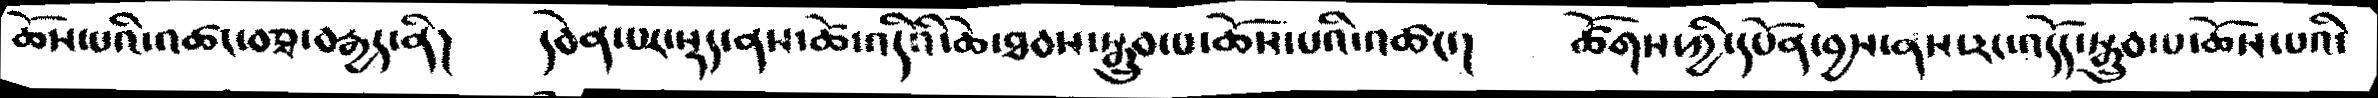ཆོས་པའི་འཚང་བཅྭ་བརྒྱད་ནི།  དབེན་པར་སྡད་ནས་ཚེ་འདིའི་ཆེ་ཐབས་སྒྲུབ་པ་ཆོས་པའི་འཚང་།  ཚོགས་ཀྱི་དཔོན་བྱས་ནས་རང་འདོད་སྒྲུབ་པ་ཆོས་པའི་
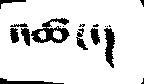འཚང་།
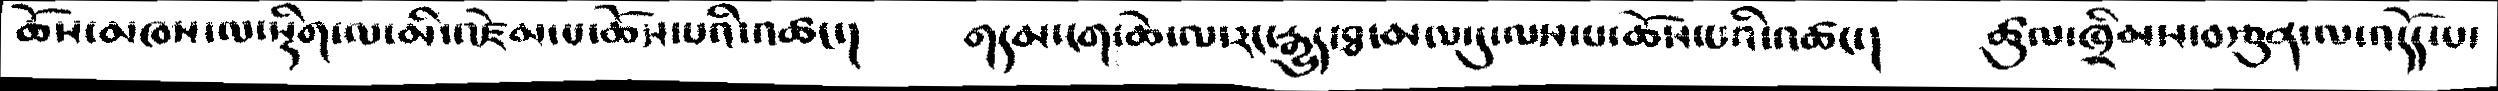ཆོས་མཁས་ལ་སྡིག་ལ་མི་འཛེམ་པ་ཆོས་པའི་འཚང་།  གདམ་ངག་ཆེ་ལ་རང་རྒྱུད་ཐ་མལ་དུ་ལས་པ་ཆོས་པའི་འཚང་།  ཚུལ་ཁྲིམས་བརྩུན་ལ་འདོད་པ་
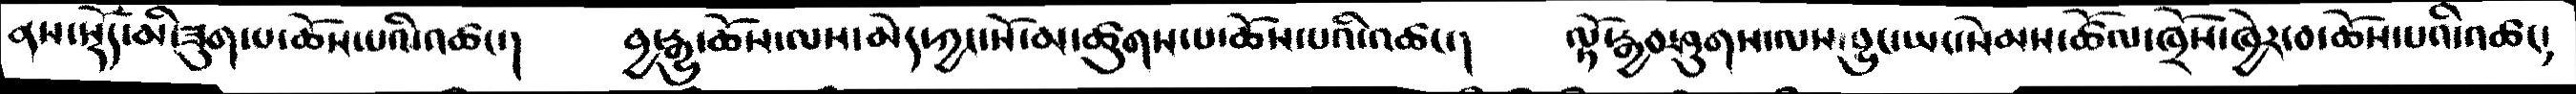ནས་སྡོད་མི་ཟུག་པ་ཆོས་པའི་འཚང་།   བྱ་རྒྱུ་ཆོས་ལས་མེད་ཀྱང་སོ་མ་ཚུགས་པ་ཆོས་པའི་འཚང་།  ལྟོ་རྒྱབ་ཤུགས་ལས་བྱུང་ཡང་སེམས་ཚོལ་ཁྲོས་ཁྱེར་བ་ཆོས་པའི་འཚང་།
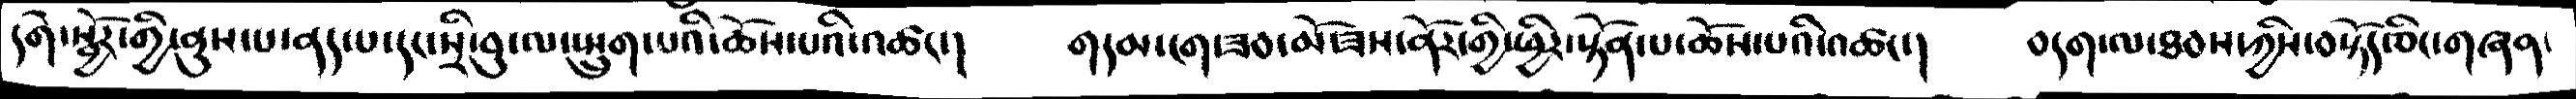དགེ་སྦྱོར་གྱི་ནུས་པ་ནད་པ་དང་སྲི་བུ་ལ་སྤྲུག་པའི་ཆོས་པའི་འཚང་།  གདམ་ངག་ཟབ་མོ་ཟསནོར་གྱི་ཕྱིར་སྟོན་པ་ཆོས་པའི་འཚང་།   བདག་ལ་ཐབས་ཀྱིས་བསྟོད་ཅིང་གཞན་
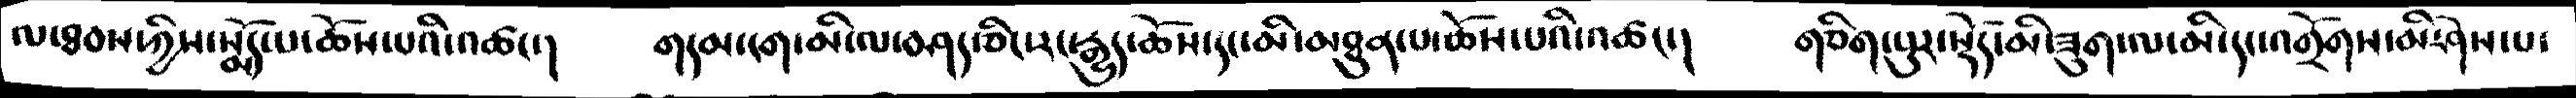ལ་ཐབས་ཀྱིས་སྨོད་པ་ཆོས་པའི་འཚང་།  གདམ་ངག་མི་ལ་བཤད་ཅིང་རང་རྒྱུད་ཆོས་དང་མི་མཐུན་པ་ཆོས་པའི་འཚང་།   གཅིག་པུར་སྡོད་མི་ཟུག་ལ་མི་དང་འགྲོགས་མི་ཤེས་པ་
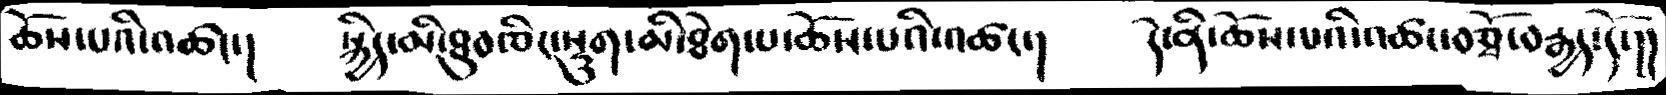ཆོས་པའི་འཚང་།  སྐྱིད་མི་ཐུབ་ཅིང་སྡུག་མི་ཐེག་པ་ཆོས་པའི་འཚང་།  དེ་ནི་ཆོས་པའི་འཚང་བཙྭོ་བརྒྱད་དོ་།།
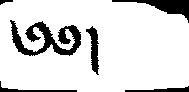༄༅།
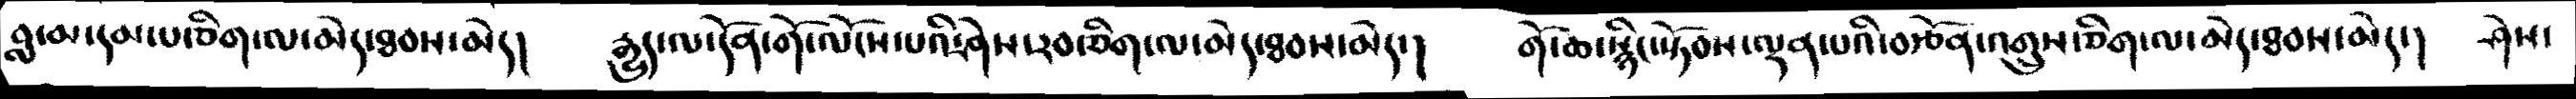བླ་མ་དམ་པ་ཅིག་ལ་མེད་ཐབས་མེད།  རྒྱུད་ལ་དོན་གོ་ལོངས་པའི་ཤེས་རབ་ཅིག་ལ་མེད་ཐབས་མེད་།  གོ་ཆ་སྙིང་སྟོབས་ལྡན་པའི་བརྩོན་འགྲུས་ཅིག་ལ་མེད་ཐབས་མེད་།  ཤེས་
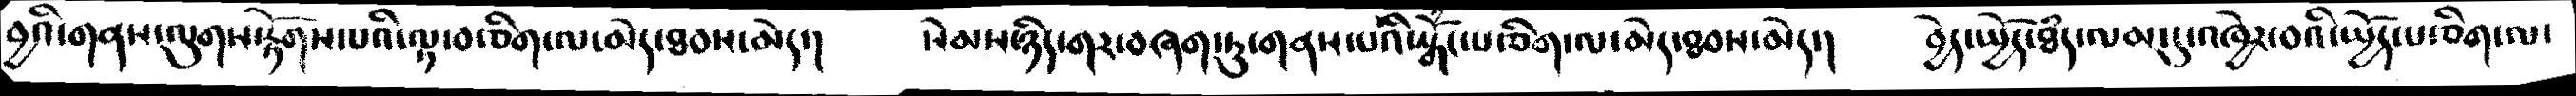བྱའི་གནས་ལུགས་རྟོགས་པའི་ལྟ་བ་ཅིག་ལ་མེད་ཐབས་མེད་།   སེམས་ཉིད་གར་བཞག་གནས་པའི་སྒོང་པ་ཅིག་ལ་མེད་ཐབས་མེད་།  བྱེད་སྤྱོད་ཐཾད་ལམ་དུ་འཁྱེར་བའི་སྤྱོད་པ་ཅིག་ལ་
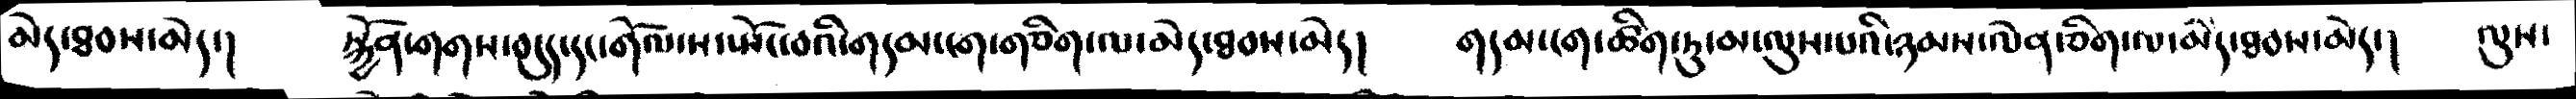མེད་ཐབས་མེད་།  སྐྱོན་གགས་བདུད་དང་གོལ་ས་སྤོང་བའི་གདམ་ངག་གཅིག་ལ་མེད་ཐབས་མེད།  གདམ་ངག་ཚིག་ཏུ་མ་ལུས་པའི་ཉམས་ལེན་ཅིག་ལ་མེད་ཐབས་མེད་།  ལུས་
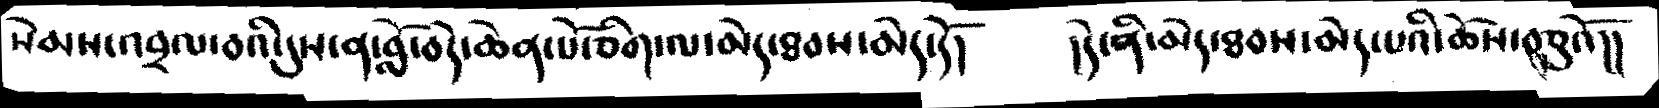སེམས་འབྲལ་བའི་དུས་ན་བློ་བདེ་ཆེན་པོ་ཅིག་ལ་མེད་ཐབས་མེད་དོ། །དེ་ནི་མེད་ཐབས་མེད་པའི་ཆོས་བཅུའོ།།
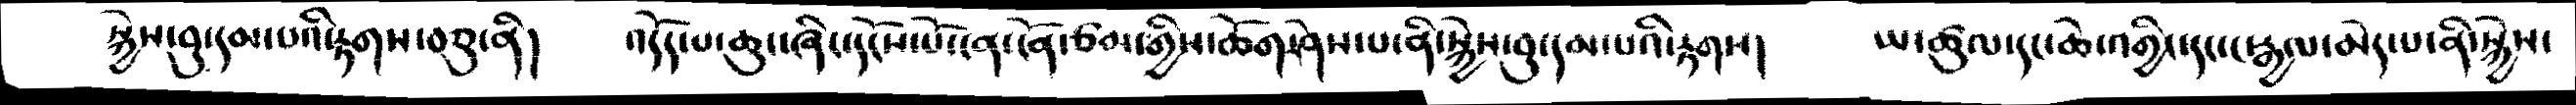སྐྱེས་བུ་དམ་པའི་རྟགས་བཅུ་ནི།  འདོད་པ་ཆུང་ཞིང་དངོས་པོ་ངན་ངོན་ཙམ་གྱི་ཆོག་ཤེས་པ་ནི་སྐྱེས་བུ་དམ་པའི་རྟགས།  ཡ་ཚུལ་དང་ཆེ་འགྱིང་དང་ང་རྒྱལ་མེད་པ་ནི་སྐྱེས་
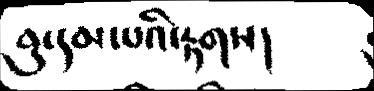བུ་དམ་པའི་རྟགས།
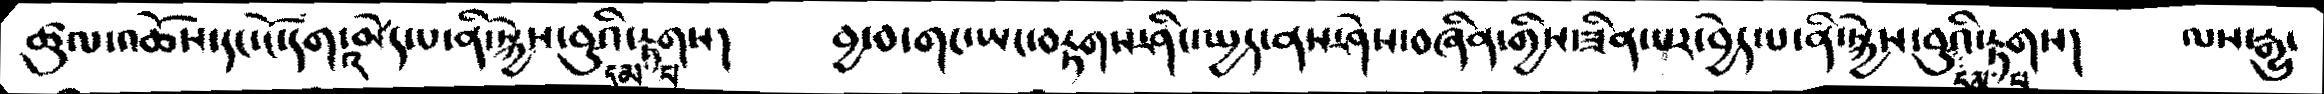ཚུལ་འཆོས་དང་ངོ་དགའ་མེད་པ་ནི་སྐྱེས་བུ་དམ་པའི་རྟགས།  བྱ་བ་གང་ཡང་བརྟགས་ཤིང་སྤྱད་ནས་ཤེས་བཞིན་གྱིས་ཟིན་པར་བྱེད་པ་ནི་སྐྱེས་བུའི་དམ་པ་རྟགས།  ལས་རྒྱུ་
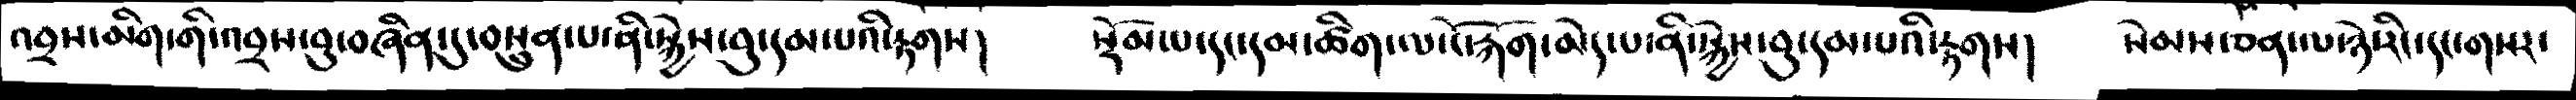འབྲས་མིག་གི་འབྲས་བུ་བཞིན་དུ་བསྲུན་པ་ནི་སྐྱེས་བུ་དམ་པའི་རྟགས།  སྡོམ་པ་དང་དམ་ཚིག་ལ་ངོ་རྐོག་མེད་པ་ནི་སྐྱེས་བུ་དམ་པའི་རྟགས།  སེམས་ཅན་ལ་ཉེ་རིང་དང་གསར་
